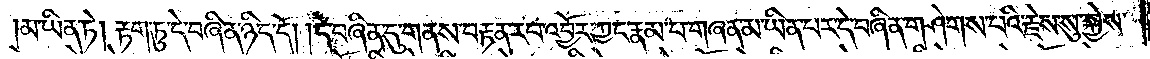མ་ཡིན་ཏེ། རྟག་ཏུ་དེ་བཞིན་ཉིད་དོ། །དེ་བཞིན་དུ་གནས་བརྟན་རབ་འབྱོར་ཀྱང་རྣམ་པ་གཞན་མ་ཡིན་པར་དེ་བཞིན་གཤེགས་པའི་རྗེས་སུ་སྐྱེས་
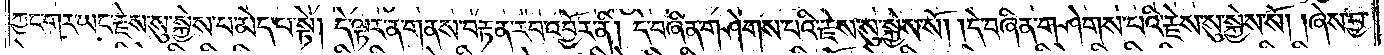ཀྱང་གར་ཡང་རྗེས་སུ་སྐྱེས་པ་མེད་པ་སྟེ། དེ་ལྟར་ན་གནས་བརྟན་རབ་འབྱོར་ནི། དེ་བཞིན་གཤེགས་པའི་རྗེས་སུ་སྐྱེས་སོ། །དེ་བཞིན་གཤེགས་པའི་རྗེས་སུ་སྐྱེས་སོ། ཞེས་བྱ་
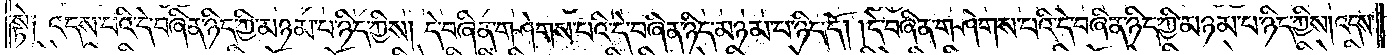སྟེ། འདས་པའི་དེ་བཞིན་ཉིད་ཀྱི་མཉམ་པ་ཉིད་ཀྱིས། དེ་བཞིན་གཤེགས་པའི་དེ་བཞིན་ཉིད་མཉམ་པ་ཉིད་དོ། །དེ་བཞིན་གཤེགས་པའི་དེ་བཞིན་ཉིད་ཀྱི་མཉམ་པ་ཉིད་ཀྱིས། འདས་
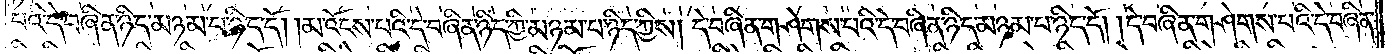པའི་དེ་བཞིན་ཉིད་མཉམ་པ་ཉིད་དོ། །མ་འོངས་པའི་དེ་བཞིན་ཉིད་ཀྱི་མཉམ་པ་ཉིད་ཀྱིས། དེ་བཞིན་གཤེགས་པའི་དེ་བཞིན་ཉིད་མཉམ་པ་ཉིད་དོ། །དེ་བཞིན་གཤེགས་པའི་དེ་བཞིན་
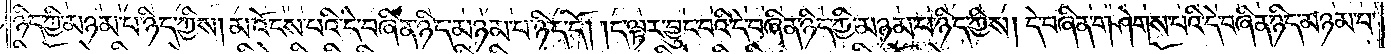ཉིད་ཀྱི་མཉམ་པ་ཉིད་ཀྱིས། མ་འོངས་པའི་དེ་བཞིན་ཉིད་མཉམ་པ་ཉིད་དོ། །ད་ལྟར་བྱུང་བའི་དེ་བཞིན་ཉིད་ཀྱི་མཉམ་པ་ཉིད་ཀྱིས། དེ་བཞིན་གཤེགས་པའི་དེ་བཞིན་ཉིད་མཉམ་པ་
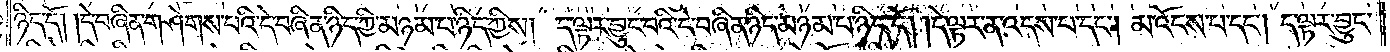ཉིད་དོ། །དེ་བཞིན་གཤེགས་པའི་དེ་བཞིན་ཉིད་ཀྱི་མཉམ་པ་ཉིད་ཀྱིས། ད་ལྟར་བྱུང་བའི་དེ་བཞིན་ཉིད་མཉམ་པ་ཉིད་དོ། །དེ་ལྟར་ན་འདས་པ་དང༌། མ་འོངས་པ་དང༌། ད་ལྟར་བྱུང་
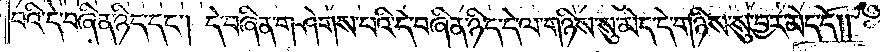བའི་དེ་བཞིན་ཉིད་དང༌། དེ་བཞིན་གཤེགས་པའི་དེ་བཞིན་ཉིད་དེ་ལ་གཉིས་སུ་མེད་དེ་གཉིས་སུ་བྱར་མེད་དོ༎
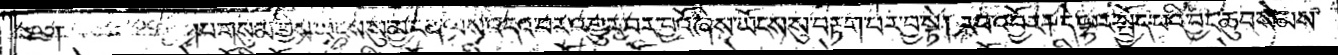པ་གསུམ་གྱིས་ཡོངས་སུ་མྱ་ངན་ལས་འདའ་བར་འགྱུར་བར་བྱའོ་ཞེས་ཡོངས་སུ་བརྟག་པར་བྱ་སྟེ། རབ་འབྱོར། དེ་ལྟར་སྤྱོད་པའི་བྱང་ཆུབ་སེམས་
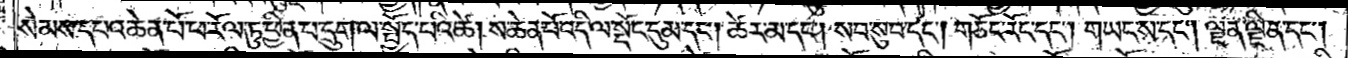སེམས་དཔའ་ཆེན་པོ་ཕ་རོལ་ཏུ་ཕྱིན་པས་དྲུག་ལ་སྤྱོད་པའི་ཚེ། ས་ཆེན་པོ་འདི་ལ་སྡོང་དུ་མ་དང༌། ཚེར་མ་དང༌། སབ་སུབ་དང༌། གཅོང་རོང་དང༌། གཡང་ས་དང༌། ལྗན་ལྗིན་དང༌།
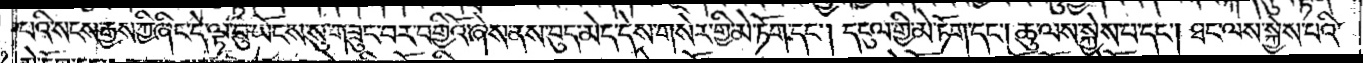པའི་སངས་རྒྱས་ཀྱི་ཞིང་དེ་ལྟ་བུ་ཡོངས་སུ་བཟུང་བར་བགྱིའོ་ཞེས་ནས་བུད་མེད་དེས་གསེར་གྱི་མེ་ཏོག་དང༌། དངུལ་གྱི་མེ་ཏོག་དང༌། ཆུ་ལས་སྐྱེས་པ་དང༌། ཐང་ལས་སྐྱེས་པའི་
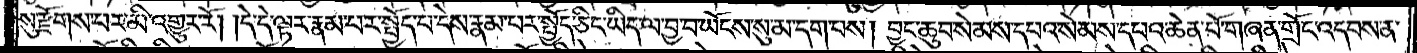སུ་རྫོགས་པར་མི་འགྱུར་རོ། །དེ་དེ་ལྟར་རྣམ་པར་སྤྱོད་པ་དེས་རྣམ་པར་སྤྱོད་ཅིང་ཡིད་ལ་བྱ་བ་ཡོངས་སུ་མ་དག་པས། བྱང་ཆུབ་སེམས་དཔའ་སེམས་དཔའ་ཆེན་པོ་གཞན་གྲོང་འདབས་ན་
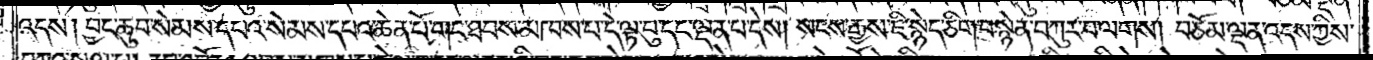འདས། བྱང་ཆུབ་སེམས་དཔའ་སེམས་དཔའ་ཆེན་པོ་གང་ཐབས་མཁས་པ་དེ་ལྟ་བུ་དང་ལྡན་པ་དེས། སངས་རྒྱས་ཇི་སྙེད་ཅིག་བསྙེན་བཀུར་བ་ལགས། བཅོམ་ལྡན་འདས་ཀྱིས་
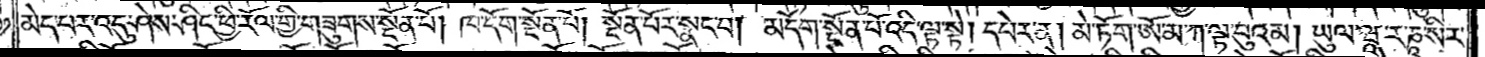མེད་པར་འདུ་ཤེས་ཤིང་ཕྱི་རོལ་གྱི་གཟུགས་སྔོན་པོ། ཁ་དོག་སྔོན་པོ། སྔོན་པོར་སྣང་བ། མདོག་སྔོན་པོ་འདི་ལྟ་སྟེ། དཔེར་ན། མེ་ཏོག་ཨོ་མ་ཀ་ལྟ་བུའམ། ཡུལ་ཝཱ་ར་ཎཱ་སིར་
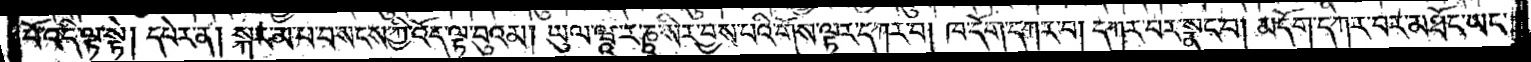པོ་འདི་ལྟ་སྟེ། དཔེར་ན། སྐར་མ་པ་བ་སངས་ཀྱི་འོད་ལྟ་བུའམ། ཡུལ་ཝཱ་ར་ཎཱ་སིར་བྱས་པའི་གོས་ལྟར་དཀར་བ། ཁ་དོག་དཀར་བ། དཀར་བར་སྣང་བ། མདོག་དཀར་བར་མཐོང་ཡང་
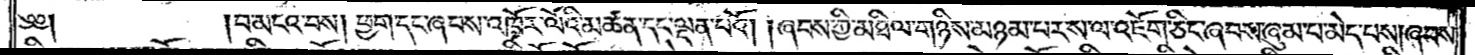༄༅༎བ་མངའ་བས། ཕྱག་དང་ཞབས་འཁོར་ལོའི་མཚན་དང་ལྡན་པའོ། །ཞབས་ཀྱི་མཐིལ་གཉིས་མཉམ་པར་ས་ལ་འཇོག་ཅིང་ཞབས་ཞུམ་པ་མེད་པས། ཞབས་
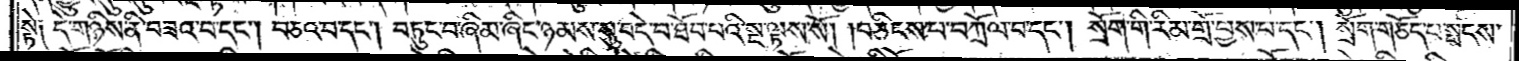སྟེ༑ དེ་གཉིས་ནི་བཟའ་བ་དང༌། བཅའ་བ་དང༌། བཏུང་བ་ཞིམ་ཞིང་ཉམས་སུ་བདེ་བ་ཐོབ་པའི་སྔ་ལྟས་སོ། །བཅིངས་པ་བཀྲོལ་བ་དང༌། སྲོག་གི་རིམ་གྲོ་བྱས་པ་དང༌། སྲོག་གཅོད་པ་སྤངས་
